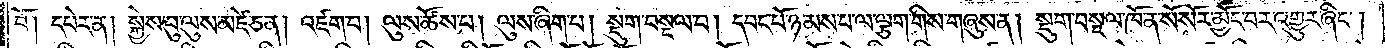བོ། དཔེར་ན། སྐྱེས་བུ་ལུས་མཛེ་ཅན། འཛག་པ། ལུས་ཚོས་པ། ལུས་ཞིག་པ། སྡུག་བསྔལ་བ། དབང་པོ་ཉམས་པ་ལ་ལྕག་གིས་གཞུས་ན། སྡུག་བསྔལ་ཁོ་ན་སོ་སོར་མྱོང་བར་འགྱུར་ཞིང༌།
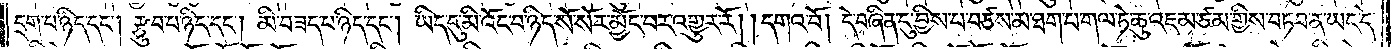དྲག་པ་ཉིད་དང༌། རྩུབ་པ་ཉིད་དང༌། མི་བཟད་པ་ཉིད་དང༌། ཡིད་དུ་མི་འོང་བ་ཉིད་སོ་སོར་མྱོང་བར་འགྱུར་རོ། །དགའ་བོ། དེ་བཞིན་དུ་བྱིས་པ་བཙས་མ་ཐག་པ་གལ་ཏེ་ཆུ་འཇམ་ཙམ་གྱིས་བཏབ་ན་ཡང་དེ་
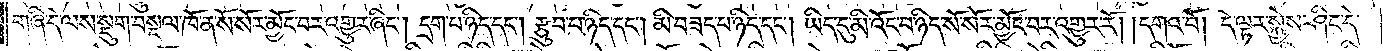གཞི་དེ་ལས་སྡུག་བསྔལ་ཁོ་ན་སོ་སོར་མྱོང་བར་འགྱུར་ཞིང༌། དྲག་པ་ཉིད་དང༌། རྩུབ་པ་ཉིད་དང༌། མི་བཟད་པ་ཉིད་དང༌། ཡིད་དུ་མི་འོང་བ་ཉིད་སོ་སོར་མྱོང་བར་འགྱུར་རོ། །དགའ་བོ། དེ་ལྟར་སྐྱེས་ཤིང་དེ་
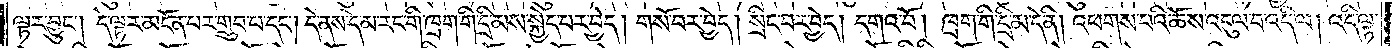ལྟར་བྱུང༌། དེ་ལྟར་མངོན་པར་གྲུབ་པ་དང༌། དེ་ནས་དེ་མ་རང་གི་ཁྲག་གི་དྲི་མས་སྐྱེད་པར་བྱེད། གསོ་བར་བྱེད། སྲིང་བར་བྱེད། དགའ་བོ། ཁྲག་གི་དྲི་མ་དེ་ནི། འཕགས་པའི་ཆོས་འདུལ་བ་འདི་ལ། འདི་ལྟ་
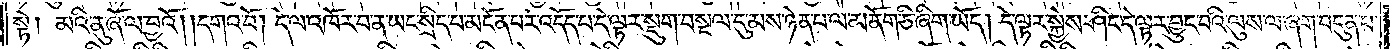སྟེ། མའི་ནུ་ཞོ་ལ་བྱའོ། །དགའ་བོ། དེ་ལ་འཁོར་བ་ན་ཡང་སྲིད་པ་མངོན་པར་འདོད་པ་དེ་ལྟར་སྡུག་བསྔལ་དུ་མས་ཉེན་པ་ལ་མནོག་ཅི་ཞིག་ཡོད། དེ་ལྟར་སྐྱེས་ཤིང་དེ་ལྟར་བྱུང་བའི་ལུས་ལ་ཞག་བདུན་པ་
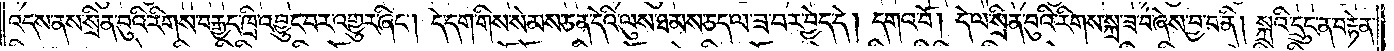འདས་ནས་སྲིན་བུའི་རིགས་བརྒྱད་ཁྲི་འབྱུང་བར་འགྱུར་ཞིང༌། དེ་དག་གིས་སེམས་ཅན་དེའི་ལུས་ཐམས་ཅད་ལ་ཟ་བར་བྱེད་དེ། དགའ་བོ། དེ་ལ་སྲིན་བུའི་རིགས་སྐྲ་ཟ་བ་ཞེས་བྱ་བ་ནི། སྐྲའི་དྲུང་ན་བརྟེན་
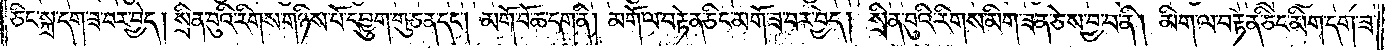ཅིང་སྐྲ་དག་ཟ་བར་བྱེད། སྲིན་བུའི་རིགས་གཉིས་པོ་དབྱུག་གུ་ཅན་དང༌། མགོ་བོ་ཆ་དག་ནི། མགོ་ལ་བརྟེན་ཅིང་མགོ་ཟ་བར་བྱེད། སྲིན་བུའི་རིགས་མིག་ཟན་ཅེས་བྱ་བ་ནི། མིག་ལ་བརྟེན་ཅིང་མིག་དག་ཟ་
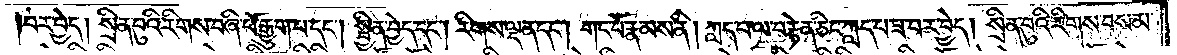བར་བྱེད། སྲིན་བུའི་རིགས་བཞི་པོ་རྒྱུག་པ་དང༌། སྦྱིན་བྱེད་དང༌། རིགས་ལྡན་དང༌། གང་པོ་རྣམས་ནི། ཀླད་པ་ལ་བརྟེན་ཅིང་ཀླད་པ་ཟ་བར་བྱེད། སྲིན་བུའི་རིགས་བསམ་
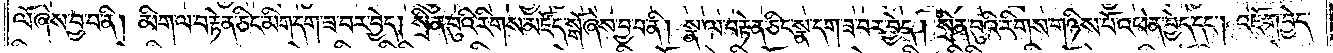ལོ་ཞེས་བྱ་བ་ནི། མིག་ལ་བརྟེན་ཅིང་མིག་དག་ཟ་བར་བྱེད། སྲིན་བུའི་རིགས་མཛོད་སྒོ་ཞེས་བྱ་བ་ནི། སྣ་ལ་བརྟེན་ཅིང་སྣ་དག་ཟ་བར་བྱེད། སྲིན་བུའི་རིགས་གཉིས་པོ་འཕེན་བྱེད་དང༌། འཇོག་བྱེད་
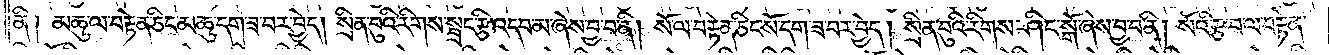ནི། མཆུ་ལ་བརྟེན་ཅིང་མཆུ་དག་ཟ་བར་བྱེད། སྲིན་བུའི་རིགས་སྦྲང་རྩི་འདབ་མ་ཞེས་བྱ་བ་ནི། སོལ་བརྟེན་ཅིང་སོ་དག་ཟ་བར་བྱེད། སྲིན་བུའི་རིགས་ཤིང་སྒོ་ཞེས་བྱ་བ་ནི། སོའི་རྩ་བ་ལ་བརྟེན་
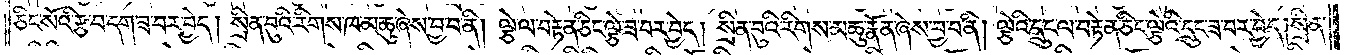ཅིང་སོའི་རྩ་བ་དག་ཟ་བར་བྱེད། སྲིན་བུའི་རིགས་ཁ་མཆུ་ཞེས་བྱ་བ་ནི། ལྕེ་ལ་བརྟེན་ཅིང་ལྕེ་ཟ་བར་བྱེད། སྲིན་བུའི་རིགས་མཆུ་རྣོན་ཞེས་བྱ་བ་ནི། ལྕེའི་དྲུང་ལ་བརྟེན་ཅིང་ལྕེའི་དྲུང་ཟ་བར་བྱེད། སྲིན་
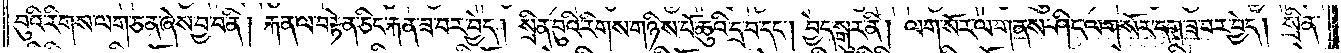བུའི་རིགས་ལག་ཅན་ཞེས་བྱ་བ་ནི། རྐན་ལ་བརྟེན་ཅིང་རྐན་ཟ་བར་བྱེད། སྲིན་བུའི་རིགས་གཉིས་པོ་ཆུའི་དྲ་བ་དང༌། བྱེད་སྒུར་ནི། ལག་སོར་ལ་གནས་ཤིང་ལག་སོར་དག་ཟ་བར་བྱེད། སྲིན་
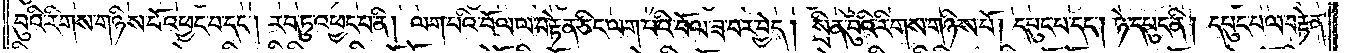བུའི་རིགས་གཉིས་པོ་འཕྱང་བ་དང༌། རབ་ཏུ་འཕྱང་བ་ནི། ལག་པའི་བོལ་བ་བརྟེན་ཅིང་ལག་པའི་བོལ་ཟ་བར་བྱེད། སྲིན་བུའི་རིགས་གཉིས་པོ། དཔུང་པ་དང༌། ཉེ་དཔུང་ནི། དཔུང་པ་ལ་བརྟེན་
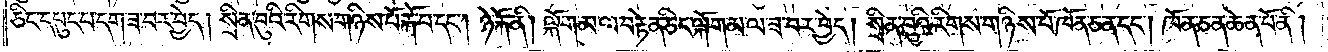ཅིང་དཔུང་པ་དག་ཟ་བར་བྱེད། སྲིན་བུའི་རིགས་གཉིས་པོ་རྐོ་བ་དང༌། ཉེ་རྐོ་ནི། ལྐོག་མ་ལ་བརྟེན་ཅིང་ལྐོག་མ་ལ་ཟ་བར་བྱེད། སྲིན་བུའི་རིགས་གཉིས་པོ་ཁོ་ན་ཅན་དང༌། ཁོ་ན་ཅན་ཆེན་པོ་ནི།
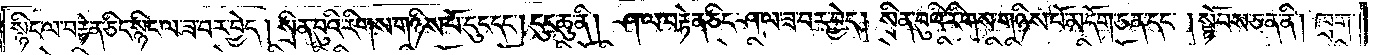སྙིང་ལ་བརྟེན་ཅིང་སྙིང་ལ་ཟ་བར་བྱེད། སྲིན་བུའི་རིགས་གཉིས་པོ་དུང་དང༌། དུང་ཆུ་ནི། ཤ་ལ་བརྟེན་ཅིང་ཤ་ལ་ཟ་བར་བྱེད། སྲིན་བུའི་རིགས་གཉིས་པོ་མདོག་ཅན་དང༌། སྟོབས་ཅན་ནི། ཁྲག་
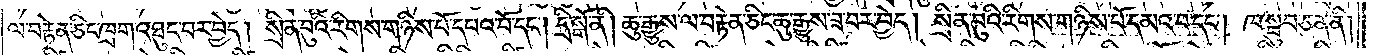ལ་བརྟེན་ཅིང་ཁྲག་འཐུང་བར་བྱེད། སྲིན་བུའི་རིགས་གཉིས་པོ་དཔའ་བོ་དང༌། དྲི་སྒོ་ནི། ཆུ་རྒྱུས་ལ་བརྟེན་ཅིང་ཆུ་རྒྱུས་ཟ་བར་བྱེད། སྲིན་བུའི་རིགས་གཉིས་པོ་དམའ་བ་དང༌། ཁ་སྦུབ་ཅན་ནི།
